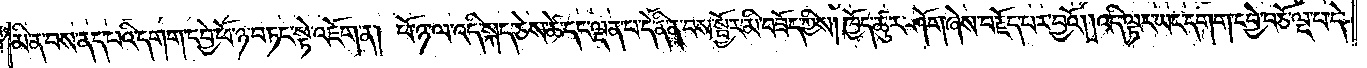མིན་བས་ནད་པའི་དགག་དབྱེ་ཕོ་ཉ་བཏང་སྟེ་འཇོག་ན། ཕོ་ཉ་ལ་འདི་སྐད་ཅེས་ཚེ་དང་ལྡན་པ་དེ་ནི་ན་བས་སྦྱོར་མི་བཟོད་ཀྱིས། ཁྱོད་ཚུར་ཤོག་ཞེས་བརྗོད་པར་བྱའོ། །འདི་ལྟར་ཡང་དགག་དབྱེ་བཅོ་ལྔ་པ་དེ་
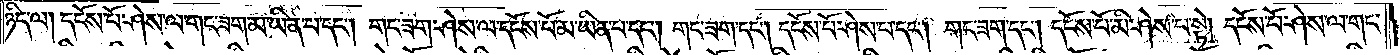ཉིད་ལ། དངོས་པོ་ཤེས་ལ་གང་ཟག་མ་ཡིན་པ་དང༌། གང་ཟག་ཤེས་ལ་དངོས་པོ་མ་ཡིན་པ་དང༌། གང་ཟག་དང༌། དངོས་པོ་ཤེས་པ་དང༌། གང་ཟག་དང༌། དངོས་པོ་མི་ཤེས་པ་སྟེ། དངོས་པོ་ཤེས་ལ་གང་
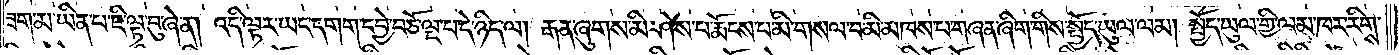ཟག་མ་ཡིན་པ་ཇི་ལྟ་བུ་ཞེ་ན། འདི་ལྟར་ཡང་དགག་དབྱེ་བཅོ་ལྔ་པ་དེ་ཉིད་ལ། རྒན་ཞུགས་མི་ཤེས་པ་རྨོངས་པ་མི་གསལ་བ་མི་མཁས་པ་གཞན་ཞིག་གིས་སྤྱོད་ཡུལ་ལམ། སྤྱོད་ཡུལ་གྱི་ལམ་ཁར་རིགས་
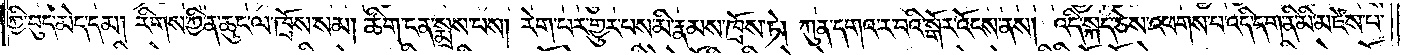ཀྱི་བུད་མེད་དམ། རིགས་ཀྱི་ན་ཆུང་ལ་ཁྲོས་སམ། ཚིག་ངན་སྨྲས་པས། རེག་པར་གྱུར་པས་མི་རྣམས་ཁྲོས་ཏེ། ཀུན་དགའ་ར་བའི་སྒོར་འོངས་ནས། འདི་སྐད་ཅེས་འཕགས་པ་འདི་དག་ནི་མི་མཛེས་པ་
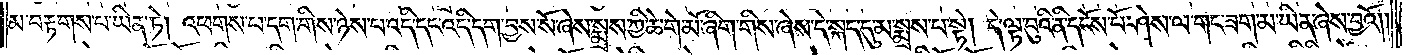མ་བརྟགས་པ་ཡིན་ཏེ། འཕགས་པ་དག་གིས་ཉེས་པ་འདི་དང་འདི་དག་བྱས་སོ་ཞེས་སྨྲས་ཀྱི་ཆེ་གེ་མོ་ཞིག་གིས་ཞེས་དེ་སྐད་དུ་མ་སྨྲས་པ་སྟེ། དེ་ལྟ་བུའི་ནི་དངོས་པོ་ཤེས་ལ་གང་ཟག་མ་ཡིན་ཞེས་བྱའོ། །
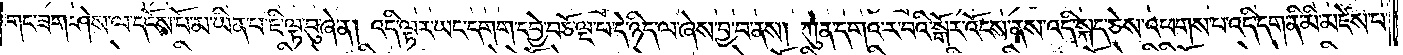གང་ཟག་ཤེས་ལ་དངོས་པོ་མ་ཡིན་པ་ཇི་ལྟ་བུ་ཞེ་ན། འདི་ལྟར་ཡང་དགག་དབྱེ་བཅོ་ལྔ་པ་དེ་ཉིད་ལ་ཞེས་བྱ་བ་ནས། ཀུན་དགའ་ར་བའི་སྒོར་འོངས་ནས་འདི་སྐད་ཅེས་འཕགས་པ་འདི་དག་ནི་མི་མཛེས་པ་
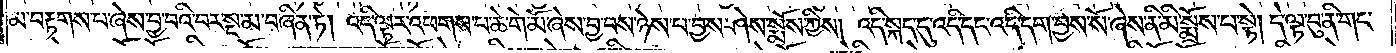མ་བརྟགས་པ་ཞེས་བྱ་བའི་བར་སྔ་མ་བཞིན་ཏེ། འདི་ལྟར་འཕགས་པ་ཆེ་གེ་མོ་ཞེས་བྱ་བས་ཉེས་པ་བྱས་ཤེས་སྨོས་ཀྱིས། འདི་སྐད་དུ་འདི་དང་འདི་དག་བྱས་སོ་ཞེས་ནི་མི་སྨྲོས་པ་སྟེ། དེ་ལྟ་བུ་ནི་གང་
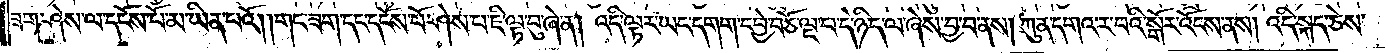ཟག་ཤེས་ལ་དངོས་པོ་མ་ཡིན་པའོ། །གང་ཟག་དང་དངོས་པོ་ཤེས་པ་ཇི་ལྟ་བུ་ཞེ་ན། འདི་ལྟར་ཡང་དགག་དབྱེ་བཅོ་ལྔ་པ་དེ་ཉིད་ལ་ཞེས་བྱ་བ་ནས། ཀུན་དགའ་ར་བའི་སྒོར་འོངས་ནས། འདི་སྐད་ཅེས་
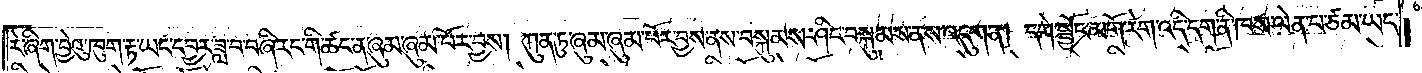རེ་ཞིག་བྱེའུ་ཁུག་རྟ་ཡང་དབྱར་ཟླ་བ་བཞི་རང་གི་ཚང་ན་ཞུམ་ཞུམ་པོར་བྱས། ཀུན་ཏུ་ཞུམ་ཞུམ་པོར་བྱས་ནས་བསྐུམས་ཤིང་བསྐུམས་ནས་འདུག་ན། དགེ་སྦྱོང་མགོ་རེག་འདི་དག་ནི་ཁས་ལེན་པ་ཙམ་ཡང་
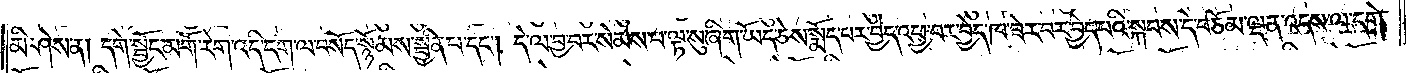མི་ཤེས་ན། དགེ་སྦྱོང་མགོ་རེག་འདི་དག་ལ་བསོད་སྙོམས་སྦྱིན་པ་དང༌། དེ་ལ་བྱ་བར་སེམས་པ་ལྟ་སུ་ཞིག་ཡོད་ཅེས་སྨོད་པར་བྱེད་འཕྱ་བར་བྱེད་ཁ་ཟེར་བར་བྱེད་པའི་སྐབས་དེ་བཅོམ་ལྡན་འདས་ལ་དགེ་
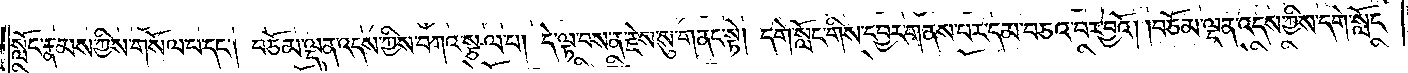སློང་རྣམས་ཀྱིས་གསོལ་པ་དང༌། བཅོམ་ལྡན་འདས་ཀྱིས་བཀའ་སྩལ་པ། དེ་ལྟ་བས་ན་རྗེས་སུ་གནང་སྟེ། དགེ་སློང་གིས་དབྱར་གནས་པར་དམ་བཅའ་བར་བྱའོ། །བཅོམ་ལྡན་འདས་ཀྱིས་དགེ་སློང་
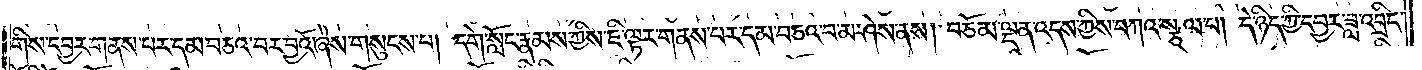གིས་དབྱར་གནས་པར་དམ་བཅའ་བར་བྱའོ་ཞེས་གསུངས་པ། དགེ་སློང་རྣམས་ཀྱིས་ཇི་ལྟར་གནས་པར་དམ་བཅའ་བ་མ་ཤེས་ནས། བཅོམ་ལྡན་འདས་ཀྱིས་བཀའ་སྩལ་པ། དེ་ཉིད་ཀྱི་དབྱར་ཟླ་འབྲིང་
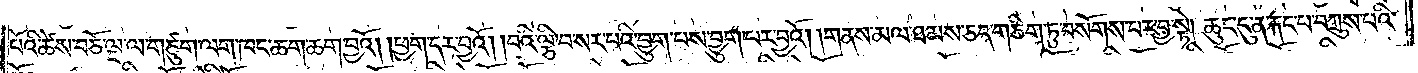པོའི་ཚེས་བཅོ་ལྔ་ལ་གཙུག་ལག་ཁང་ཆག་ཆག་བྱའོ། །ཕྱག་དར་བྱའོ། །བའི་ལྕི་བ་སར་པའི་བྱུག་པས་བྱུག་པར་བྱའོ། །གནས་མལ་ཐམས་ཅད་གཅིག་ཏུ་བསོགས་པར་བྱ་སྟེ། ཆུང་ངུ་ན་རྐང་པ་བཀྲུས་པའི་
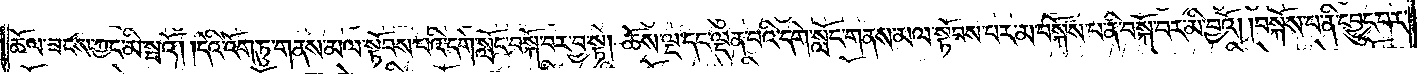ཆོལ་ཟངས་ཀྱང་མི་སྦའོ། །དེའི་འོག་ཏུ་གནས་མལ་སྟོབས་པའི་དགེ་སློང་བསྐོ་བར་བྱ་སྟེ། ཆོས་ལྔ་དང་ལྡན་པའི་དགེ་སློང་གནས་མལ་སྟོབས་པར་མ་བསྐོས་པ་ནི་བསྐོ་བར་མི་བྱའོ། །བསྐོས་པ་ནི་དབྱུང་བར་
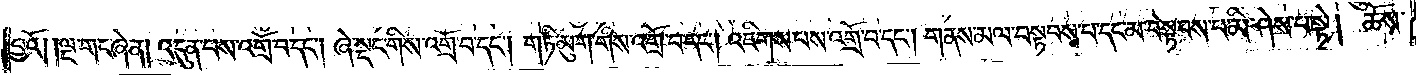བྱའོ། །ལྔ་གང་ཞེ་ན། འདུན་པས་འགྲོ་བ་དང༌། ཞེ་སྡང་གིས་འགྲོ་བ་དང༌། གཏི་མུག་གིས་འགྲོ་བ་དང༌། འཇིགས་པས་འགྲོ་བ་དང༌། གནས་མལ་བསྟབས་པ་དང་མ་བསྟབས་པ་མི་ཤེས་པ་སྟེ། ཆོས་
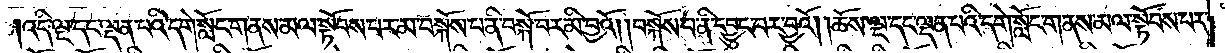།འདི་ལྔ་དང་ལྡན་པའི་དགེ་སློང་གནས་མལ་སྟོབས་པར་མ་བསྐོས་པ་ནི་བསྐོ་བར་མི་བྱའོ། །བསྐོས་བ་ནི་དབྱུང་བར་བྱའོ། །ཆོས་ལྔ་དང་ལྡན་པའི་དགེ་སློང་གནས་མལ་སྟོབས་པར་
